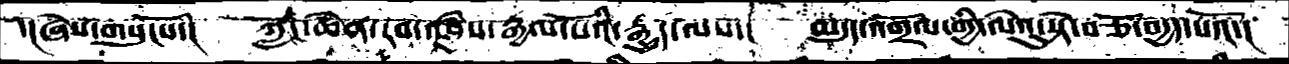་།ཞེས་གསུངསོ་།  ཀློང་ཆེན་རབ་འབྱཾས་རྒྱལ་པོའི་རྒྱུད་ལས་།  མདུད་འགྲོལ་གྱི་ལེའུ་སྟེ་བཅོ་བདྱད་པའོ་།
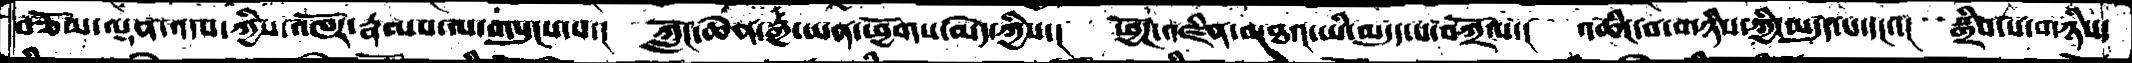བཅོམ་ལྡན་འདས་ཀྱིས་འཁོར་རྣམས་ལ་གསུངས་པ་།  ཀློང་ཆེན་རྒྱ་ཡན་ཕྱོགས་མེད་ཀྱིས་།  ཕྱོཌ་འཛིན་མཐའ་ཡི་མདུད་པ་བཀྲོལ་།  འཆིང་བ་གཉིས་ཀྱི་མདུད་པ་དང་་།  སྒྲིབ་པ་གཉིས་
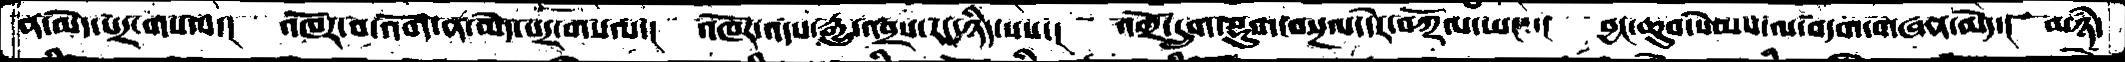ན་མེད་པར་གསལ་།  འཁོར་བ་འོག་ན་མེད་པར་གསལ་།  འཁོར་འདས་རྒྱུ་འབྲས་རང་ཉིད་པས་།  འགྲོ་དྲུག་སྡུག་བསྔལ་དེར་བཀྲོལ་ཡང་་།  བྱང་ཆུབ་སེམས་ལ་བདག་གཞན་མེད་།  མཉཾ་
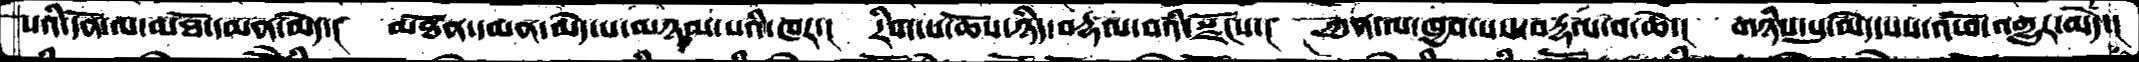པའི་དོན་ལ་མཐོ་དམན་མེད་།  མཐོན་དམན་མེད་པ་མཉམ་པའི་ཁར་།  རིག་པ་ཆོས་ཉིད་བརྡལ་བའི་སྫོངས་།  ཀུན་ལ་ཁྱབ་པས་བརྡལ་བ་ཆེ་།  གཉིས་སུ་མེད་པས་འཕོ་འགྱུར་མེད་།
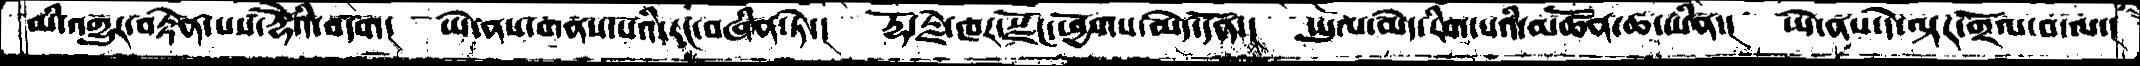མི་འགྱུར་བརྟེན་པས་རྡོེའི་བདག།  ཡེ་ནས་གནས་པའི་རང་བཞིན་ཏེ་།  རྡོ་རྗེ་ཁར་སྫོང་ཕྱོགས་མེད་དོན་།  ཡུལ་མེད་རིག་པའི་མཚོན་ཆ་ཡིན་།  ཡེ་ནས་དེ་ལྟར་གྲོལ་བ་ལ་།
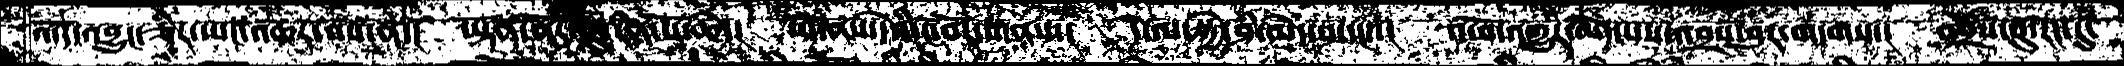འདོད་འབྱུང་ཅིར་ཡང་འཆར་བས་ན་། ཡྟོན་ནོར་བུ་རིན་པོ་ཆེ་། ཡེ་ནས་དེའིངོ་བོར་གནས་། དེ་ལ་སྐྱེ་ཤི་མེད་པ་དང་་། འཕོ་འགྱུར་མེད་པས་འབྲས་བུར་གདགས་། འབྲས་བུ་རང་དུ་
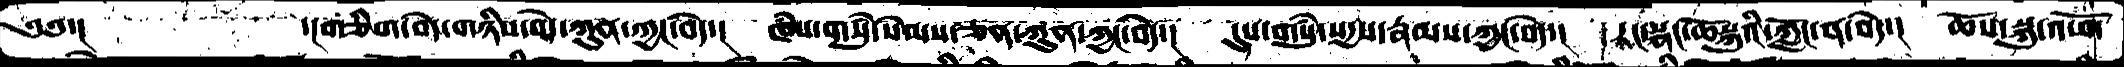༄༅་།       ་།གཅིག་བདེ་གཉིས་བདེ་ཀུན་ཀྱང་བདེ་།  ཁཾས་གསུཾ་སེམས་ཅན་ཀུན་ཀྱང་བདེ་།  དུས་གསུཾ་སདྱས་རྣམས་ཀྱང་བདེ་།  རང་སྣང་ཆོསྐུའི་ཀློང་ན་བདེ་།  ཆོས་སྐུ་འཕོ་
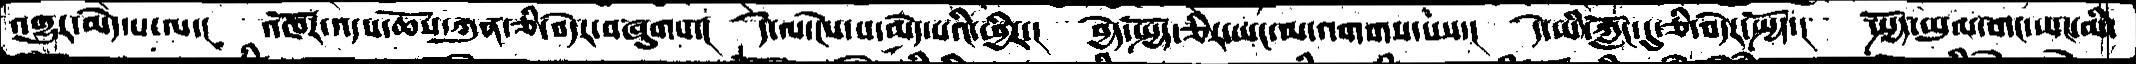འགྱུར་མེད་པ་ལ་།  འཁོར་འདས་ཆོས་ཀུན་ཅི་བདེར་བཞུགས་།  དེ་ལ་ངེས་པ་མེད་པའི་ཕྱིར་།  བྱེད་སྤྱོད་ཅིར་ཡང་མ་འགགས་པས་།  དེ་ཡི་ཀློང་དུ་ཅི་བདེར་སྤྱོད་།  སྤྱོད་ཡུལ་གང་ཡང་མི་
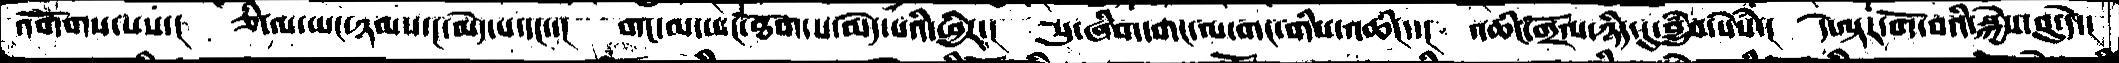འགོགས་པས་།  ཅི་ལ་ཡང་ཉམས་ང་མེད་པ་དང་།  གང་ལ་ཡང་ཐོག་པ་མེད་པའི་ཕྱིར་།  སུ་ཞིག་གང་ལ་གང་གིས་འཆིང་་།  འཆིང་གྲོལ་ཉིད་དུ་བྱུཾབ་སེཾས་།  དེ་ལྟར་གོ་བའི་སྐྱེས་བུ་དེ་།
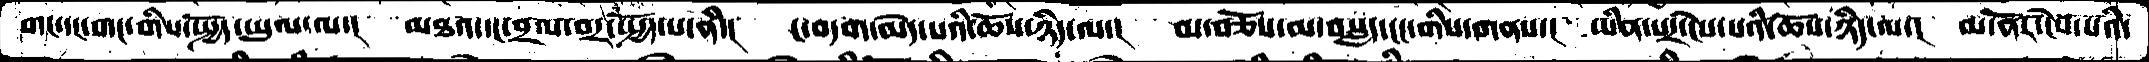གང་དང་གང་གིས་སྤྱོད་ཡུལ་ལ་།  མཐའ་དང་བྲལ་བར་སྤྱོད་པ་ནི་།  ང་བདག་མེད་པའི་ཆོས་ཉིད་ལ་།  མ་བཅོས་མ་བསླད་ངང་གིས་གནས་།  ཡིན་པར་ངེས་པའི་ཆོས་ཉིད་ལ་།  མ་ནོར་ངེས་པའི་
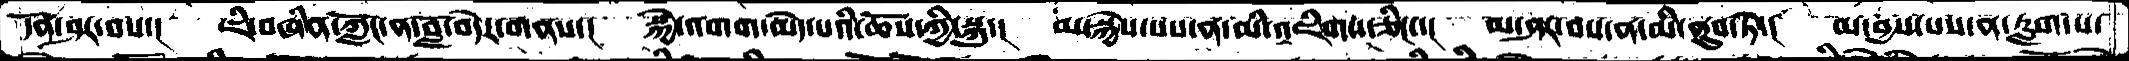དོན་ཤར་བས་།  ཇི་བཞིན་ཀློང་ན་བློ་བདེར་གནས་།  སྐྱེ་འགག་མེད་པའི་ཆོས་ཀྱི་སྐུ་།  མ་སྐྱེས་པས་ན་མི་འཇིགས་ཅིང་་།  མ་ཤར་བས་ན་མི་ནུབ་ཏེ་།  མ་བྱས་པས་ན་རླག་པ་
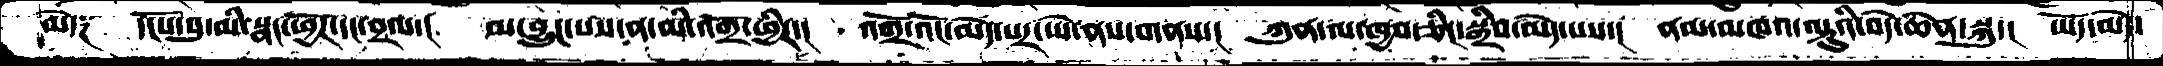མེད༑  དངོས་སུ་མི་སྣང་ཕྱོཌ་དང་བྲལ་།  མ་བྱུང་པས་ན་མི་འགྲོ་ཕྱིར་།  འགྲོ་འོང་མེད་པར་ཡེ་ནས་གནས་།  ཀུན་ལ་ཁྱབ་ཅིང་སྒྲིབ་མེད་པས་།  ནམ་མཁའ་ལྟུའི་བདེ་ཆེན་སྐུ་།  ཡོད་མེད་
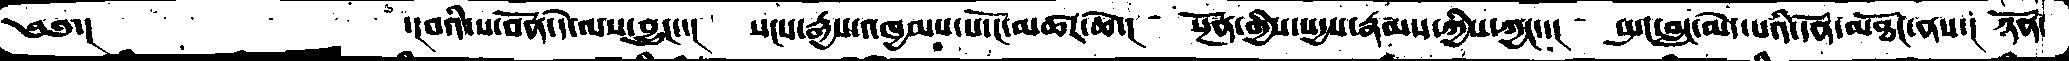༄༅་།           ་།བའི་ས་བོན་དེ་ལས་བྱུང་།  སངས་རྒྱས་འཁྱམས་པ་ངོ་མཚར་ཆེ་།  སྔོན་གྱིས་སདྱས་རྣམས་ཀྱིས་ཀྱང་།  སྤང་བླང་མེད་པའི་དོན་མཐོང་ནས་།  ཉོན་
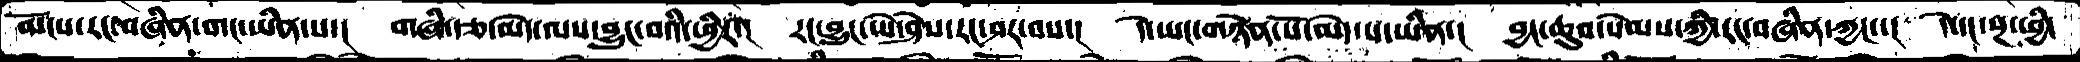མོངས་རང་བཞིན་གང་ཡིན་པ་།  གཞི་རྩ་མེད་ལས་བྱུང་བའི་ཕྱིར་།  རང་བྱུང་ཡེ་ཤེས་རང་ཤར་བས་།  དེ་ཡང་གཉེན་པོ་མེད་པ་ཡིན་།  བྱང་ཆུབ་སེམས་ཀྱི་རང་བཞིན་ཀྱང་།  དེ་དང་སྔ་ཕྱི་
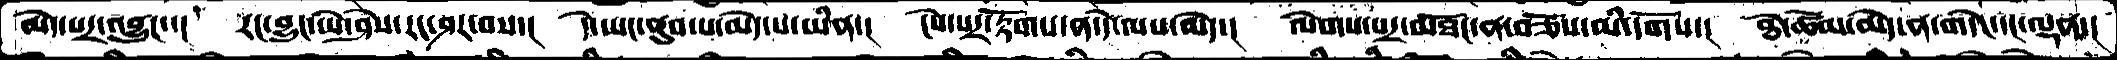མེད་པར་འབྱུང་་།  རང་བྱུང་ཡེ་ཤེས་རང་ཤར་བས་།  དེ་ཡང་ནུབ་པ་མེད་པ་ཡིན་།  ངེས་པར་རྟོགས་ན་དེ་ལས་མེད་།  ལེགས་པར་མཐོང་ན་བཅོས་མི་དགོས་།  ཐེ་ཚོམ་མེད་ན་གདེང་དང་ལྡན་།
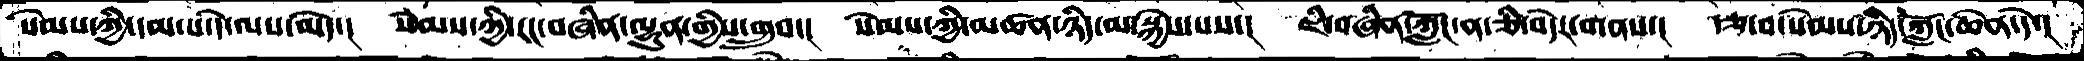སེམས་ཀྱི་དམ་པ་དེ་ལས་མེད་།  སེམས་ཀྱི་རང་བཞིན་ལྷུན་གྱིས་གྲུབ་།  སེམས་ཀྱི་མཚན་ཉིད་མ་སྐྱེས་པས་།  ཇི་བཞིན་ཀློང་ན་ཅི་བདེར་གནས་།  རྩ་བ་སེམས་ཉིད་ཀློང་ཆེན་དེ་།
